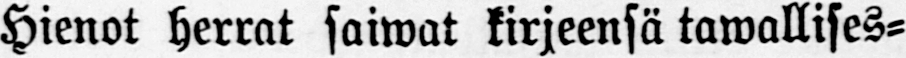Hienot herrat saiwat kirjeensä tawallises-
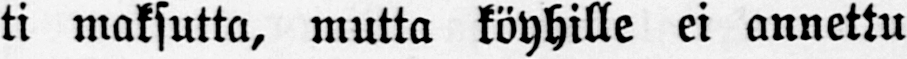ti maksutta, mutta köyhille ei annettu
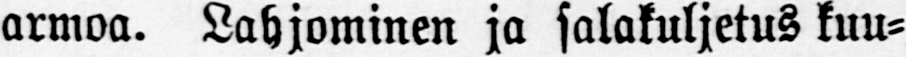armoa. Lahjominen ja salakuljetus kuu-
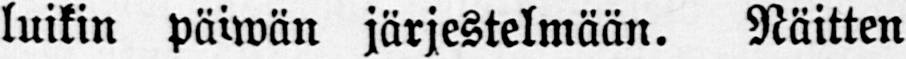luikin päiwän järjestelmään. Näitten
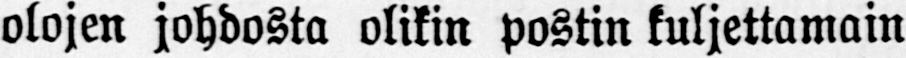olojen johdosta olikin postin kuljettamain
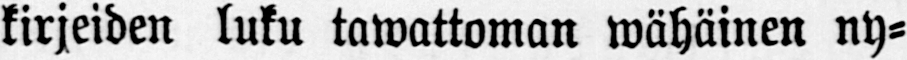kirjeiden luku tawattoman wähäinen ny-
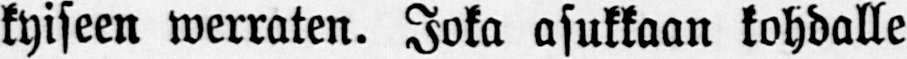kyiseen werraten. Joka asukkaan kohdalle
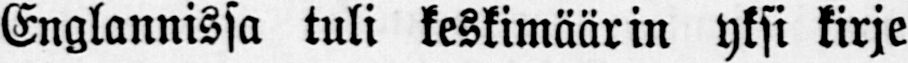Englannissa tuli keskimäärin yksi kirje
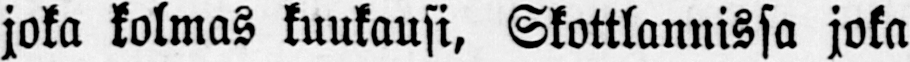joka kolmas kuukausi, Skottlannissa joka
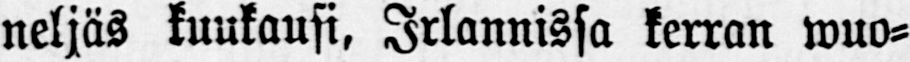neljäs kuukausi, Irlannissa kerran wuo-
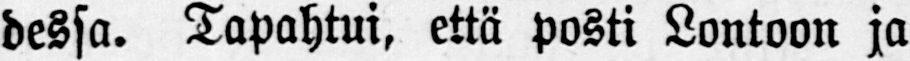dessa. Tapahtui, että posti Lontoon ja
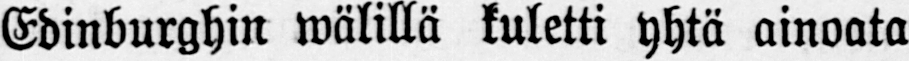Edinburghin wälillä kuletti yhtä ainoata
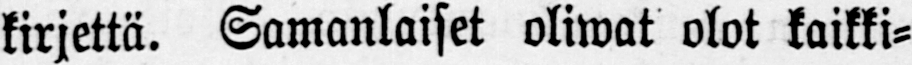kirjettä. Samanlaiset oliwat olot kaikki-
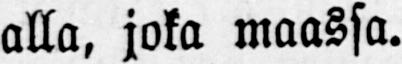alla, joka maassa.
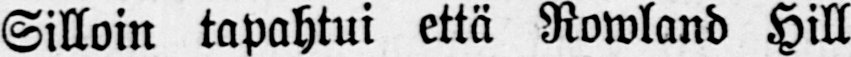Silloin tapahtui että Rowland Hill
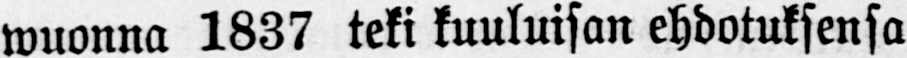wuonna 1837 teki kuuluisan ehdotuksensa
